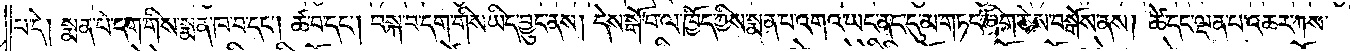པ་དེ། སྨན་པ་དག་གིས་སྨན་ཁ་བ་དང༌། ཚ་བ་དང༌། བསྐ་བ་དག་གིས་ཡིད་བྱུང་ནས། དེས་སྒོ་བ་ལ་ཁྱོད་ཀྱིས་སྨན་པ་འགའ་ཡང་ནང་དུ་མ་གཏང་ཞིག་ཅེས་བསྒོས་ནས། ཚེ་དང་ལྡན་པ་འཆར་ཀས་
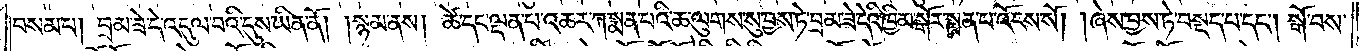བསམ་པ། བྲམ་ཟེ་དེ་འདུལ་བའི་དུས་ཡིན་ནོ། །སྙམ་ནས། ཚེ་དང་ལྡན་པ་འཆར་ཀ་སྨན་པའི་ཆ་ལུགས་སུ་བྱས་ཏེ་བྲམ་ཟེ་དེའི་ཁྱིམ་སྒོར་སྨན་པ་འོངས་སོ། །ཞེས་བྱས་ཏེ་བསྡད་པ་དང༌། སྒོ་བས་
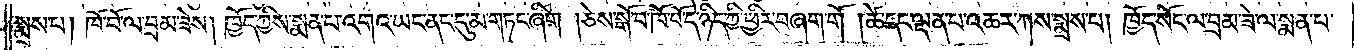སྨྲས་པ། ཁོ་བོ་ལ་བྲམ་ཟེས། ཁྱོད་ཀྱིས་སྨན་པ་འགའ་ཡང་ནང་དུ་མ་གཏང་ཞིག །ཅེས་སྒོ་བ་ཁོ་བོ་དེ་ཉིད་ཀྱི་ཕྱིར་བཞག་གོ །ཚེ་དང་ལྡན་པ་འཆར་ཀས་སྨྲས་པ། ཁྱོད་སོང་ལ་བྲམ་ཟེ་ལ་སྨན་པ་
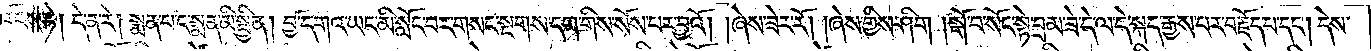འོངས་ཏེ། དེ་ན་རེ། སྨན་པ་ང་སྨན་མི་སྦྱིན། བྱ་དགའ་ཡང་མི་སློང་བར་གསང་སྔགས་དག་གིས་སོས་པར་བྱའོ། །ཞེས་ཟེར་རོ། །ཞེས་གྱིས་ཤིག །སྒོ་བ་སོང་སྟེ་བྲམ་ཟེ་དེ་ལ་དེ་སྐད་རྒྱས་པར་བརྗོད་པ་དང༌། དེས་
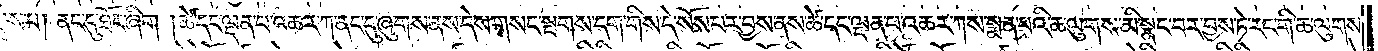སྨྲས་པ། ནང་དུ་ཐོང་ཞིག །ཚེ་དང་ལྡན་པ་འཆར་ཀ་ནང་དུ་ཞུགས་ནས་དེས་གསང་སྔགས་དག་གིས་དེ་སོས་པར་བྱས་ནས་ཚེ་དང་ལྡན་པ་འཆར་ཀས་སྨན་པའི་ཆ་ལུགས་མི་སྣང་བར་བྱས་ཏེ་རང་གི་ཆ་ལུགས་
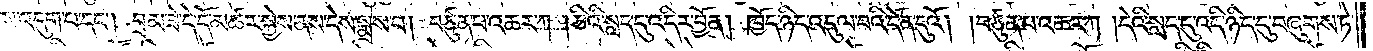ས་འདུག་པ་དང༌། བྲམ་ཟེ་དེ་དོ་མཚར་སྐྱེས་ནས་དེས་སྨྲས་པ། བཙུན་པ་འཆར་ཀ །ཅིའི་སླད་དུ་འདིར་བྱོན། ཁྱོད་ཉིད་འདུལ་བའི་དོན་དུའོ། །བཙུན་པ་འཆར་ཀ །དེའི་སླད་དུ་འདི་ཉིད་དུ་བཞུགས་ཏེ་
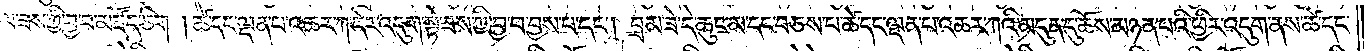ལ་ཟས་ཀྱི་བྱ་བ་མཛོད་ཅིག །ཚེ་དང་ལྡན་པ་འཆར་ཀ་དེར་འདུག་སྟེ་ཟས་ཀྱི་བྱ་བ་བྱས་པ་དང༌། བྲམ་ཟེ་དེ་ཆུང་མ་དང་བཅས་པ་ཚེ་དང་ལྡན་པ་འཆར་ཀའི་མདུན་དུ་ཆོས་མཉན་པའི་ཕྱིར་འདུག་ནས་ཚེ་དང་
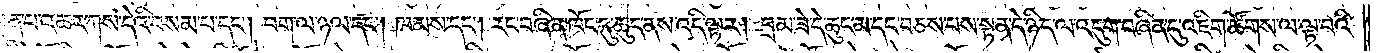ན་པ་འཆར་ཀས་དེའི་བསམ་པ་དང༌། བག་ལ་ཉལ་དང༌། ཁམས་དང༌། རང་བཞིན་ཁོང་དུ་ཆུད་ནས་འདི་ལྟར། བྲམ་ཟེ་དེ་ཆུང་མ་དང་བཅས་པས་སྟན་དེ་ཉིད་ལ་འདུག་བཞིན་དུ་འཇིག་ཚོགས་ལ་ལྟ་བའི་
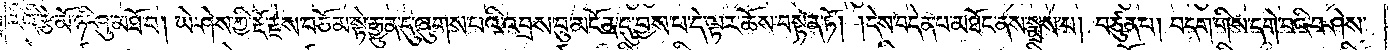རིའི་རྩེ་མོ་ཉི་ཤུ་མཐོ་བ། ཡེ་ཤེས་ཀྱི་རྡོ་རྗེས་བཅོམ་སྟེ་རྒྱུན་དུ་ཞུགས་པའི་འབྲས་བུ་མངོན་དུ་བྱས་པ་དེ་ལྟར་ཆོས་བསྟན་ཏོ། །དེས་བདེན་པ་མཐོང་ནས་སྨྲས་པ། བཙུན་པ། བདག་གིས་དགེ་བའི་བཤེས་
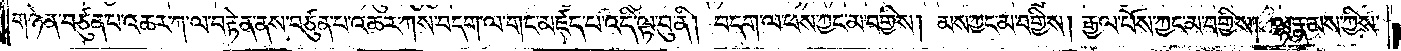གཉེན་བཙུན་པ་འཆར་ཀ་ལ་བརྟེན་ནས་བཙུན་པ་འཆར་ཀས་བདག་ལ་གང་མཛད་པ་འདི་ལྟ་བུ་ནི། བདག་ལ་ཕས་ཀྱང་མ་བགྱིས། མས་ཀྱང་མ་བགྱིས། རྒྱལ་པོས་ཀྱང་མ་བགྱིས། ལྷ་རྣམས་ཀྱིས་
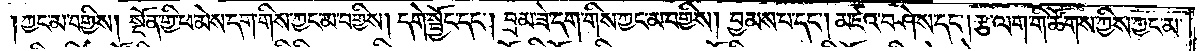ཀྱང་མ་བགྱིས། སྔོན་གྱི་ཕ་མེས་དག་གིས་ཀྱང་མ་བགྱིས། དགེ་སྦྱོང་དང༌། བྲམ་ཟེ་དག་གིས་ཀྱང་མ་བགྱིས། བྱམས་པ་དང༌། མཛའ་བཤེས་དང༌། རྩ་ལག་གི་ཚོགས་ཀྱིས་ཀྱང་མ་
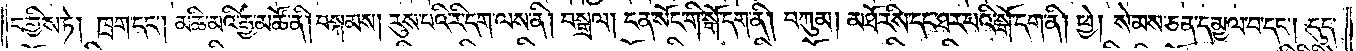བགྱིས་ཏེ། ཁྲག་དང༌། མཆི་མའི་རྒྱ་མཚོ་ནི། བསྐམས། རུས་པའི་རི་དག་ལས་ནི། བསྒྲལ། ངན་སོང་གི་སྒོ་དག་ནི། བཀུམ། མཐོ་རིས་དང་ཐར་པའི་སྒོ་དག་ནི། ཕྱེ། སེམས་ཅན་དམྱལ་བ་དང༌། དུད་
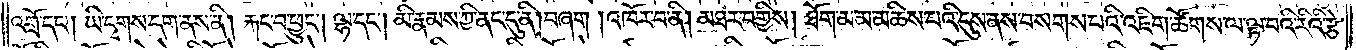འགྲོ་དང༌། ཡི་དྭགས་དག་ནས་ནི། རྐང་པ་ཕྱུང༌། ལྷ་དང༌། མི་རྣམས་ཀྱི་ནང་དུ་ནི། བཞག །འཁོར་བ་ནི། མཐར་བགྱིས། ཐོག་མ་མ་མཆིས་པའི་དུས་ནས་བསགས་པའི་འཇིག་ཚོགས་ལ་ལྟ་བའི་རིའི་རྩེ་
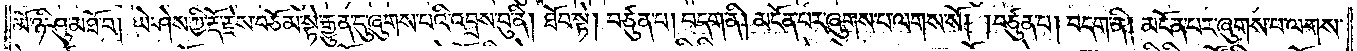མོ་ཉི་ཤུ་མཐོ་བ། ཡེ་ཤེས་ཀྱི་རྡོ་རྗེས་བཅོམ་སྟེ་རྒྱུན་དུ་ཞུགས་པའི་འབྲས་བུ་ནི། ཐོབ་སྟེ། བཙུན་པ། བདག་ནི། མངོན་པར་ཞུགས་པ་ལགས་སོ། །བཙུན་པ། བདག་ནི། མངོན་པར་ཞུགས་པ་ལགས་
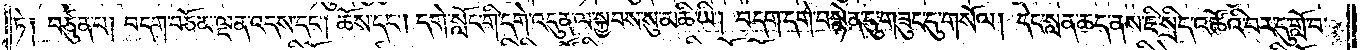ཏེ༑ བཙུན་པ། བདག་བཅོམ་ལྡན་འདས་དང༌། ཆོས་དང༌། དགེ་སློང་གི་དགེ་འདུན་ལ་སྐྱབས་སུ་མཆི་ཡི། བདག་དགེ་བསྙེན་དུ་གཟུང་དུ་གསོལ། དེང་སླན་ཆད་ནས་ཇི་སྲིད་འཚོའི་བར་དུ་གློ་བ་
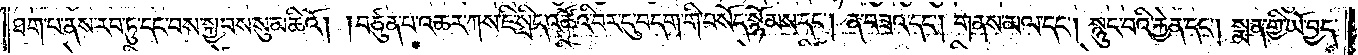ཐག་པ་ནས་རབ་ཏུ་དང་བས་སྐྱབས་སུ་མཆིའོ། །བཙུན་པ་འཆར་ཀས་ཇི་སྲིད་འཚོའི་བར་དུ་བདག་གི་བསོད་སྙོམས་དང༌། ན་བཟའ་དང༌། གནས་མལ་དང༌། སྙུང་བའི་རྐྱེན་དང༌། སྨན་གྱི་ཡོ་བྱད་
